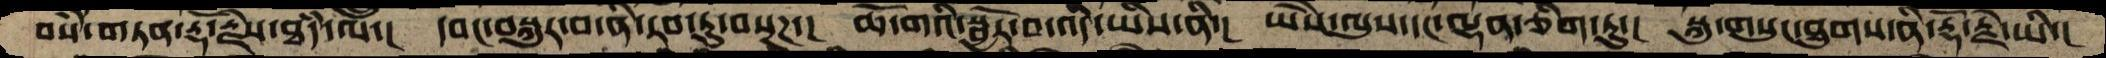བསཾ་གཏན་རྡོ་རྗེས་ཐཾད་ལ་།  དབང་བསྐུར་་བ་ནི་རབ་ཏུ་བསྔཌ་།  ཆོ་གའི་སྦྱོར་བ་འདི་ཡིས་ནི་།  ཡཻས་ལུས་དང་ལྷན་ཅིག་ཏུ་།  སྐུ་གསུང་ཐུགས་ནི་རྡོ་རྗེ་ཡི་།
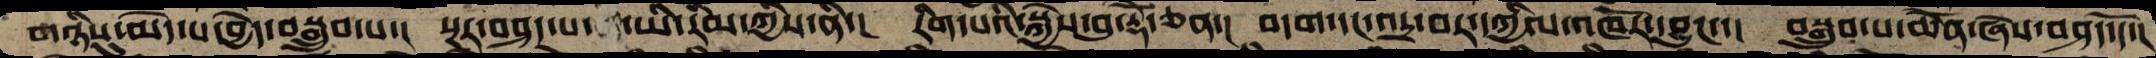གཉིསུ་མེད་པ་བྱེད་བསྒྲུབ་པ་།  སྔར་བཤད་པ་ ཡི་རིམ་ཀྱིས་ནི་།  རིག་པའི་སྐྱེས་བུ་རྡོེ་ཅན་།  བདག་དང་འདྲ་བར་དཀྱིལ་འཁོར་དབྱུང་་།  བསྒྲུབ་པ་ཆེནོ་ཞེས་བཤད་དོ་།
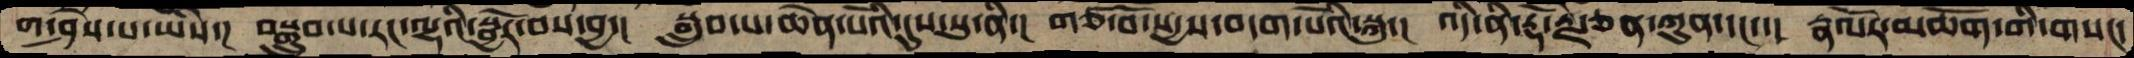ག་ཤེས་པ་ཡཻས་།  བསྒྲུབ་པ་རང་ལྷའི་སྦྱོར་བས་བྱ་།  སྒྲུབ་པ་ཆེན་པོའི་དུས་སུ་ནི་།  གཙོ་བོ་སདྱས་བདག་པོའི་སྐུ་།  འདི་ནི་རྡོ་རྗེ་ཅན་ཀུན་དང་་།  རྣལོར་མཆོག་གི་གསང་
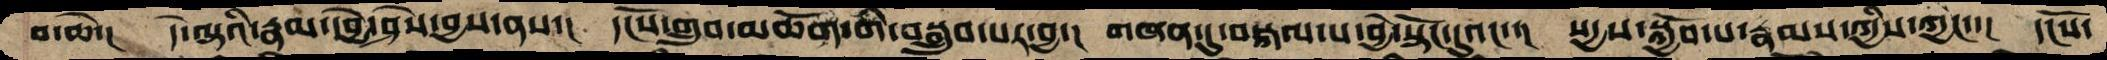བ་ཆེ་།  དེ་ལྟའི་རྣལ་དབྱེ་ཤེས་བྱས་ནས་།  དངོས་གྲུབ་མཆོག་གི་བསྒྲུབ་པར་བྱ་།  གཞན་དུ་བསྐལ་པ་བྱེ་སྟོང་དུའང་་།  སདྱས་སྐྱོབ་པ་རྣམས་ཀྱིས་ཀྱང་་།  དངོས་
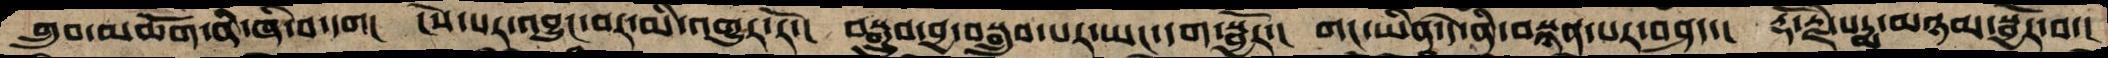གྲུབ་མཆོག་ནི་ཞི་བ་དག།  ངེས་པར་འབྱུང་བར་མི་འགྱུར་རོ་།  བསྒྲུབ་བྱ་བསྒྲུབ་པར་ཡང་དག་སྦྱོར་།  གང་ཡིན་དེ་ནི་བསྙན་པར་བཤད་།  རྡོ་རྗེ་པདྨ་མཉམ་སྦྱོར་བ་།
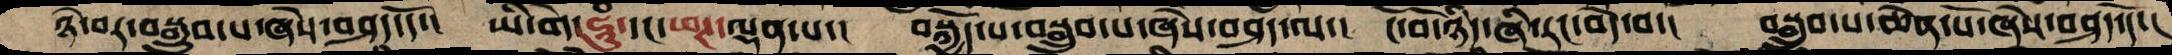ཉེ་བར་བསྒྲུབ་པ་ཞེས་བཤད་དོ་།  ཡི་གེ་ཧཱུཾ་དང་ཕཊ་ལྡན་པ་།  བསྐྱོད་པ་བསྒྲུབ་པ་ཞེས་བཤད་ལ་།  ངོ་བོ་ཉིད་ཞི་རང་བདེ་བ་།  བསྒྲུབ་པ་ཆེན་པོ་ཞེས་བཤད་དོ་།
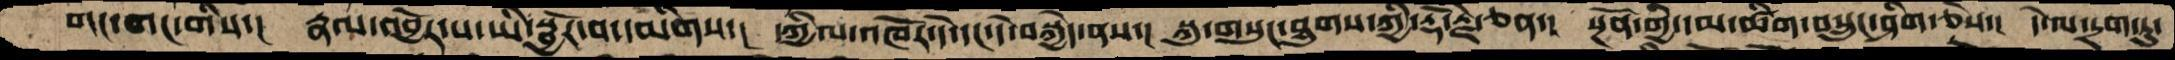གང་གང་གིས་།  རྣལ་འབྱོར་པ་ཡི་སྦྱོར་བ་དམིགས་།  དཀྱིལ་འཁོར་དེ་དང་དེ་བསྐྱེད་ནས་།  སྐུ་གསུང་ཐུགས་ཀྱི་རྡོ་རྗེ་ཅན་།  སྔོན་གྱི་དམ་ཚིག་བསྲུང་ཤིག་ཅེས་།  དེ་ལ་དྲག་ཏུ་
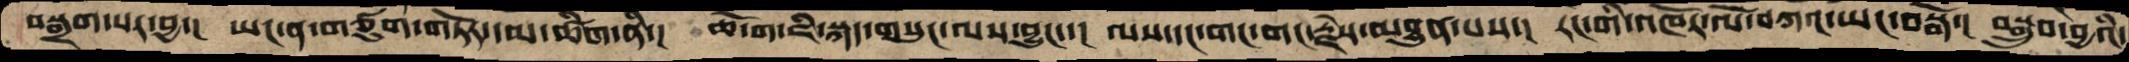བསྒྲག་པར་བྱ་།  ཡང་ན་གཙུག་གཏོར་དམ་ཚིག་ནི་།  ཆོ་ག་ཇི་སྐད་གསུང་ལས་བྱུང་་།  ལས་དང་གང་གང་རྗེས་མཐུན་པས་།  རང་གི་འཁོར་ལོ་བཀའ་ཡང་བསྒོ་།  བསྒྲུབ་བྱའི་
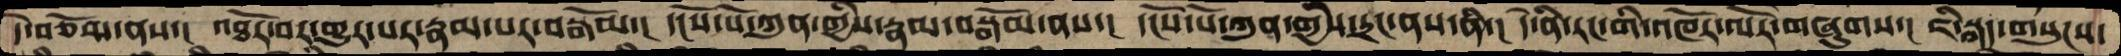དེ་བཅོམ་ནས་།  འཐོར་བར་གྱུར་པ་རྣམ་པར་བསྒོམ་།  དངོས་པོ་ཀུན་གྱིས་རྣམ་བསྒོམ་ནས་།  དངོས་པོ་ཀུན་གྱིས་དྲང་ནས་ནི་།  དེ་ནི་རང་གི་འཁོར་ལོར་གཞུགས་།  ཇི་སྐད་གསུངས་
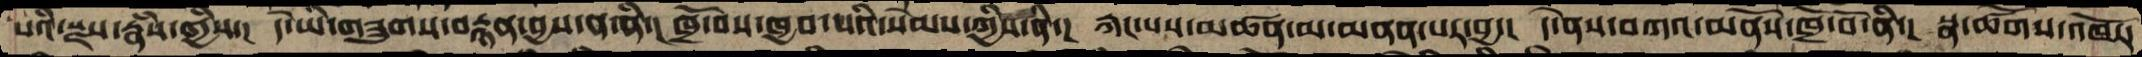པའི་སྫས་རྣཾས་ཀྱིས་།  དེ་ཡི་གཟུགས་བརྙན་བྱས་ན་ནི་།  ཁྲོ་བོས་ཁྱབ་པའི་སེམས་ཀྱིས་ནི་།  རྐང་པས་མཚན་མ་མནན་པར་བྱ་།  དེ་ནས་བཀའ་མནོས་ཁྲོ་བོ་ནི་།  སྣ་ཚོགས་འཁོར་
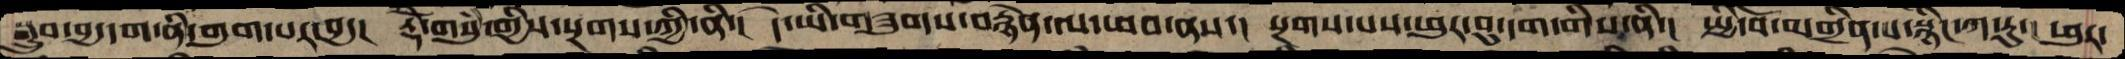སྒྲུབ་བྱ་དག་ནིདགུག་པར་བྱ་།  རྡོེ་གསུམ་གྱིས་སྔགས་ཀྱི་ནི་།  དེ་ཡི་གཟུགས་བརྙེན་ལ་ཕབ་ནས་།  སྔགས་པས་ཕུར་བུ་དག་གིས་ནི་།  སྤྱི་བོ་མགྲིན་པ་སྙིང་ཀ་རུ་།  ཕུར་
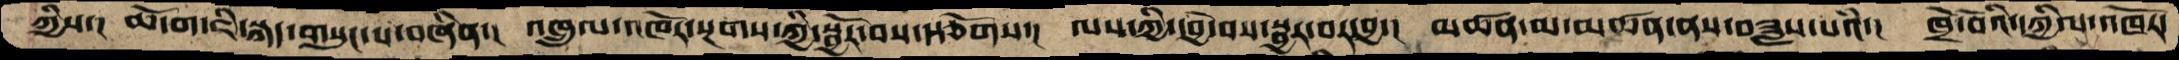ཀྱིས་།  ཆོ་ག་ཇི་སྐད་གསུང་པ་བཞིན་།  འཁྲུལ་འཁོར་སྔགས་ཀྱི་སྦྱོར་བས་སྩོགས་།  ལས་ཀྱི་དབྱེ་བས་སྦྱར་བར་བྱ་།  མཚན་མ་མཚན་ནས་བཟླས་པའཾ་།  ཁྲོ་བོའི་དཀྱིལ་འཁོར་
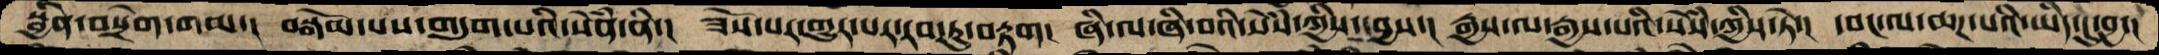སྦྱིན་བསྲེག་གམ་།  བསྒོམ་པས་གདུག་པའི་སེཾན་ནི་།  ཟོས་པར་གྱུར་པར་རབ་ཏུ་བརྟག།  ཞི་ལ་ཞི་བའི་སེཾས་ཀྱིས་དབྱས་།   རྒྱས་ལ་རྒྱས་པའི་སེཾས་ཀྱིས་ཏེ་།  དབང་ལ་ཆཌ་པའི་ཡིད་དུ་བྱ་།
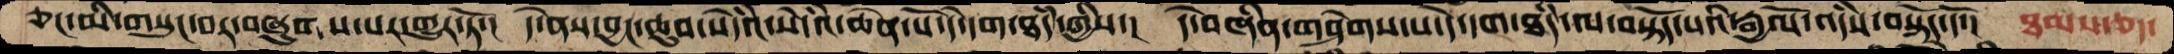ཅང་མི་གསུང་བར་བཞུགས་པར་གྱུར་ཏོ་།  དེ་ནས་བྱང་ཆུབ་སེདཾའ་སེདཾའ་ཆེན་པོ་དེ་དག་ཐཾད་གྱིས་།  དེ་བཞིན་གཤེགས་པ་དེ་དག་ཐཾད་ལ་བསྟོད་པའི་རྒྱལོ་འདིས་བསྟོད་དོ་།  ཐམས་ཅད་
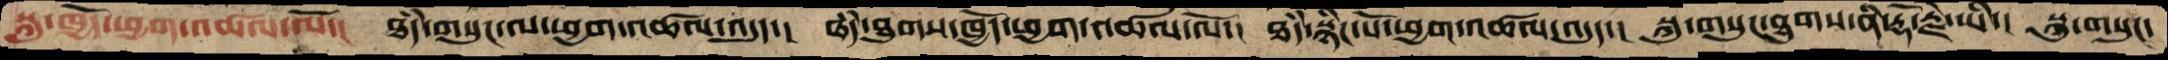སྐུ་ཁྱོད་ཕྱག་འཚལ་ལོ་།  ཐཾད་གསུང་ལ་ཕྱག་འཚལ་འདུད་།  ཐཾད་ཐུགས་ཁྱོད་ཕྱག་འཚལ་ལོ་།  ཐཾད་སྙིང་པོ་ཕྱག་འཚལ་འདུད་།  སྐུ་གསུང་ཐུགས་ནི་རྡོ་རྗེ་ཡི་།  སྐུ་གསུང་
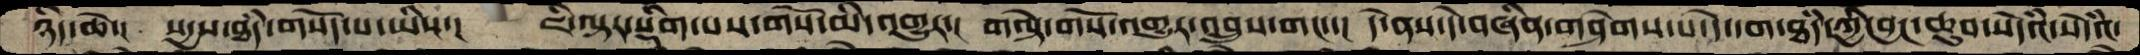ཉིད་ཆེ་།  སདྱས་ཐཾད་གསོད་པ་ཡིས་།  ཇི་ལྟར་སྡིག་པས་གསོ་མི་འགྱུར་།  གལྟེ་གསོ་འགྱུར་འབྲུས་གང་་།  དེ་ནས་དེ་བཞིན་གཤེགས་པ་དེ་དག་ཐཾད་ཀྱི་བྱང་ཆུབ་སེདཾའ་སེདཾའ་
